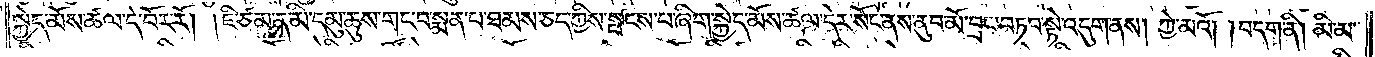སྐྱེས་མོས་ཚལ་དེ་བོར་རོ། །ཇི་ཙམ་ན་མི་དམུ་ཆུས་གང་བ་སྨན་པ་ཐམས་ཅད་ཀྱིས་སྤངས་པ་ཞིག་སྐྱེད་མོས་ཚལ་དེར་སོང་ནས་ནུབ་མོ་བྲང་བཏབ་སྟེ་འདུག་ནས། ཀྱེ་མའོ། །བདག་ནི། མི་མ་
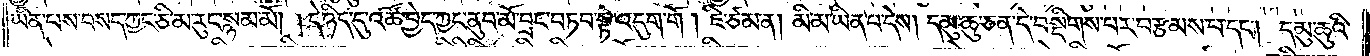ཡིན་པས་བསད་ཀྱང་ཅི་མ་རུང་སྙམ་མོ། །དེ་ཉིད་དུ་འཚོ་བྱེད་ཀྱང་ནུབ་མོ་བྲང་བཏབ་སྟེ་འདུག་གོ །ཇི་ཙམ་ན། མི་མ་ཡིན་པ་དེས། དམུ་ཆུ་ཅན་དེ་བསྡིགས་པར་བརྩམས་པ་དང༌། དམུ་ཆུའི་
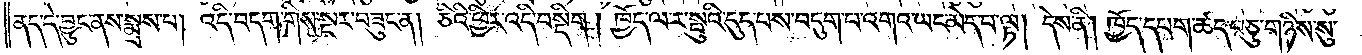ནད་དེ་བྱུང་ནས་སྨྲས་པ། འདི་བདག་གིས་སྔར་བཟུང་ན། ཅིའི་ཕྱིར་འདི་བསྡིག །ཁྱོད་ལ་ར་སྤུའི་དུད་པས་བདུག་པ་འགའ་ཡང་མེད་པ་ལྟ། དེས་ནི། ཁྱོད་དཔག་ཚད་བཅུ་གཉིས་སུ་
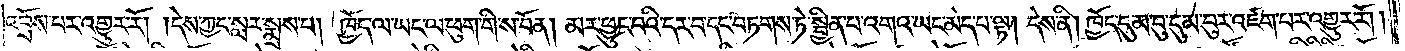འབྲོས་པར་འགྱུར་རོ། །དེས་ཀྱང་སླར་སྨྲས་པ། ཁྱོད་ལ་ཡང་ལ་ཕུག་གི་ས་བོན། མར་ཕྱུང་བའི་དར་བ་དང་བཏགས་ཏེ་སྦྱིན་པ་འགའ་ཡང་མེད་པ་ལྟ། དེས་ནི། ཁྱོད་དུམ་བུ་དུམ་བུར་འཛག་པར་འགྱུར་རོ། །
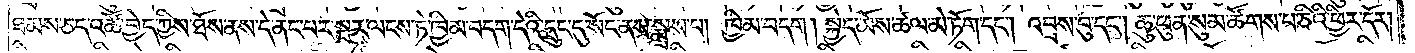ཐམས་ཅད་འཚོ་བྱེད་ཀྱིས་ཐོས་ནས་དེ་ནང་པར་སྔར་ལངས་ཏེ་ཁྱིམ་བདག་དེའི་དྲུང་དུ་སོང་ནས་སྨྲས་པ། ཁྱིམ་བདག །སྐྱེད་མོས་ཚལ་མེ་ཏོག་དང༌། འབྲས་བུ་དང༌། ཆུ་ཕུན་སུམ་ཚོགས་པ་ཅིའི་ཕྱིར་དོར།
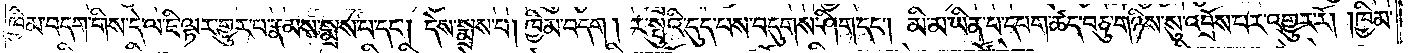ཁྱིམ་བདག་གིས་དེ་ལ་ཇི་ལྟར་གྱུར་པ་རྣམས་སྨྲས་པ་དང༌། དེས་སྨྲས་པ། ཁྱིམ་བདག། ར་སྤུའི་དུད་པས་བདུགས་ཤིག་དང༌། མི་མ་ཡིན་པ་དཔག་ཚད་བཅུ་གཉིས་སུ་འབྲོས་པར་འགྱུར་རོ། །ཁྱིམ་
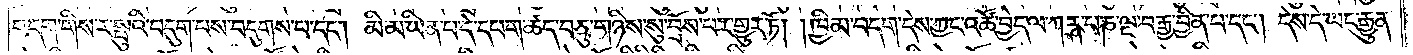བདག་གིས་ར་སྤུའི་བདུག་པས་བདུགས་པ་དང༌། མི་མ་ཡིན་པ་དེ་དཔག་ཚད་བཅུ་གཉིས་སུ་བྲོས་པར་གྱུར་ཏོ། །ཁྱིམ་བདག་དེས་ཀྱང་འཚོ་བྱེད་ལ་ཀརྴ་པ་ཎ་ལྔ་བརྒྱ་བྱིན་པ་དང༌། དེས་དེ་ཡང་རྒྱུན་
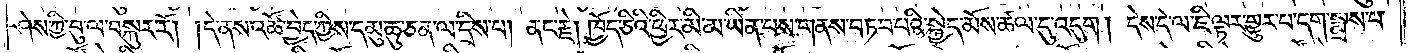ཤེས་ཀྱི་བུ་ལ་བསྐུར་རོ། །དེ་ནས་འཚོ་བྱེད་ཀྱིས་དམུ་ཆུ་ཅན་ལ་དྲིས་པ། ནང་རྗེ། ཁྱོད་ཅིའི་ཕྱིར་མི་མ་ཡིན་པས་གནས་བཏབ་པའི་སྐྱེད་མོས་ཚལ་དུ་འདུག །དེས་དེ་ལ་ཇི་ལྟར་གྱུར་པ་དག་སྨྲས་པ་
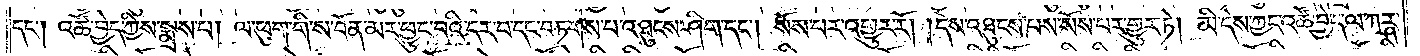དང༌། འཚོ་བྱེད་ཀྱིས་སྨྲས་པ། ལ་ཕུག་གི་ས་བོན་མར་ཕྱུང་བའི་དར་བ་དང་བཏགས་པ་འཐུང་ཤིག་དང༌། སོས་པར་འགྱུར་རོ། །དེས་འཐུངས་པས་སོས་པར་གྱུར་ཏེ། མི་དེས་ཀྱང་འཚོ་བྱེད་ལ་ཀརྴ་
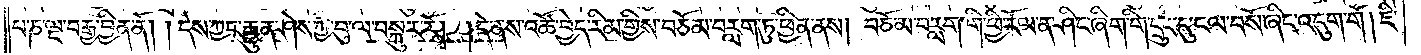པ་ཎ་ལྔ་བརྒྱ་བྱིན་ནོ། །དེས་ཀྱང་རྒྱུན་ཤེས་ཀྱི་བུ་ལ་བསྐུར་རོ། །དེ་ནས་འཚོ་བྱེད་རིམ་གྱིས་བཅོམ་བརླག་ཏུ་ཕྱིན་ནས། བཅོམ་བརླག་གི་ཕྱི་རོལ་ན་ཤིང་ཞིག་གི་དྲུང་དུ་ངལ་བསོ་ཞིང་འདུག་གོ །ཇི་
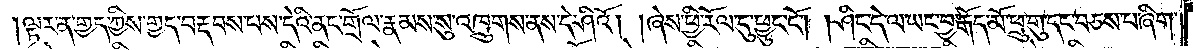ལྟར་ན་གྱད་ཀྱིས་གྱད་བརྡབས་པས་དེའི་ནང་གྲོལ་རྣམས་སུ་འཁྲུགས་ནས་དེ་ཤིའོ། །ཞེས་ཕྱི་རོལ་དུ་ཕྱུང་ངོ༌། །ཤིང་དེ་ལ་ཡང་བྱ་རྒོད་མོ་ཕྲུ་གུ་དང་བཅས་པ་ཞིག་
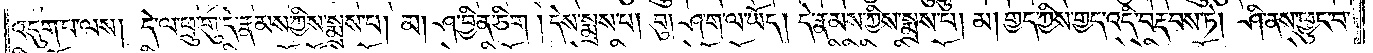འདུག་པ་ལས། དེ་ལ་ཕྲུ་གུ་དེ་རྣམས་ཀྱིས་སྨྲས་པ། མ། ཤ་བྱིན་ཅིག །དེས་སྨྲས་པ། བུ། ཤ་ག་ལ་ཡོད། དེ་རྣམས་ཀྱིས་སྨྲས་པ། མ། གྱད་ཀྱིས་གྱད་འདི་བརྡབས་ཏེ། ཤི་ནས་ཕྱུང་བ་
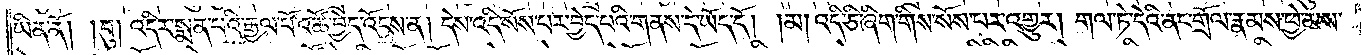ཡིན་ནོ། །བུ། འདིར་སྨན་པའི་རྒྱལ་པོ་འཚོ་བྱེད་འོངས་ན། དེས་འདི་སོས་པར་བྱེད་པའི་གནས་དེ་ཡོད་དོ། །མ། འདི་ཅི་ཞིག་གིས་སོས་པར་འགྱུར། གལ་ཏེ་དེའི་ནང་གྲོལ་རྣམས་ཕྱེ་མས་
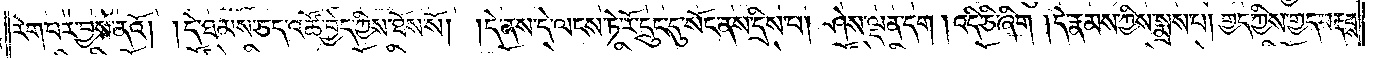རེག་པར་བྱས་ནའོ། །དེ་ཐམས་ཅད་འཚོ་བྱེད་ཀྱིས་ཐོས་སོ། །དེ་ནས་དེ་ལངས་ཏེ་རོ་དྲུང་དུ་སོང་ནས་དྲིས་པ། ཤེས་ལྡན་དག །འདི་ཅི་ཞིག །དེ་རྣམས་ཀྱིས་སྨྲས་པ། གྱད་ཀྱིས་གྱད་བརྡབས་
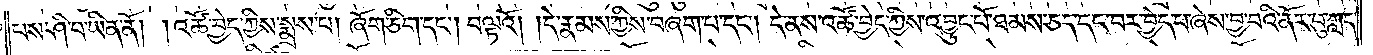པས་ཤི་བ་ཡིན་ནོ། །འཚོ་བྱེད་ཀྱིས་སྨྲས་པ། ཞོག་ཅིག་དང༌། བལྟའོ། །དེ་རྣམས་ཀྱིས་བཞག་པ་དང༌། དེ་ནས་འཚོ་བྱེད་ཀྱིས་འབྱུང་པོ་ཐམས་ཅད་དང་བར་བྱེད་པ་ཞེས་བྱ་བའི་ནོར་བུ་ཀླད་
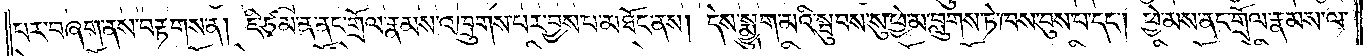པར་བཞག་ནས་བརྟགས་ན། ཇི་ཙམ་ན་ནང་གྲོལ་རྣམས་འཁྲུགས་པར་བྱས་པ་མཐོང་ནས། དེས་སྨྱུག་མའི་སྦུབས་སུ་ཕྱེ་མ་བླུགས་ཏེ་ཁས་བུས་པ་དང༌། ཕྱེ་མས་ནང་གྲོལ་རྣམས་ལ་
